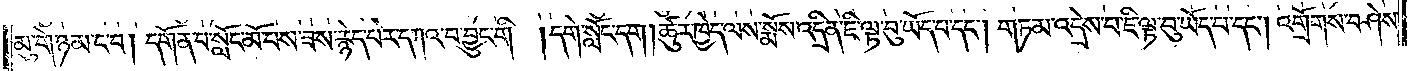མུ་གེ་ཉམ་ང་བ། དགོན་པ་སློང་མོ་པས་ཟས་རྙེད་པར་དཀའ་བ་བྱུང་གི །དགེ་སློང་དག །ཚུར་ཁྱེད་ལས་སྨོས་འདྲིན་ཇི་ལྟ་བུ་ཡོད་པ་དང༌། གཏམ་འདྲེས་པ་ཇི་ལྟ་བུ་ཡོད་པ་དང༌། འགྲོགས་བཤེས་
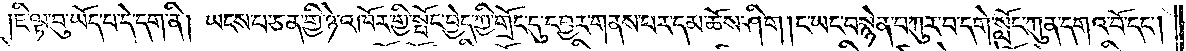ཇི་ལྟ་བུ་ཡོད་པ་དེ་དག་ནི། ཡངས་པ་ཅན་གྱི་ཉེ་འཁོར་གྱི་སྤོང་བྱེད་ཀྱི་གྲོང་དུ་དབྱར་གནས་པར་དམ་ཆོས་ཤིག །ང་ཡང་བསྙེན་བཀུར་བ་དགེ་སློང་ཀུན་དགའ་བོ་དང༌།
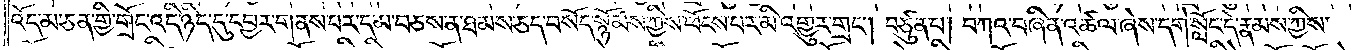འོད་མ་ཅན་གྱི་གྲོང་འདི་ཉིད་དུ་དབྱར་གནས་པར་དམ་བཅས་ན་ཐམས་ཅད་བསོད་སྙོམས་ཀྱིས་ཕོངས་པར་མི་འགྱུར་གྲང༌། བཙུན་པ། བཀའ་བཞིན་འཚལ་ཞེས་དགེ་སློང་དེ་རྣམས་ཀྱིས་
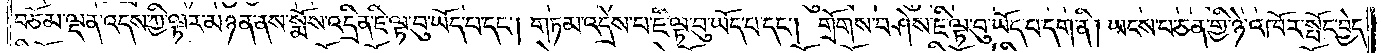བཅོམ་ལྡན་འདས་ཀྱི་ལྟར་མཉན་ནས་སྨོས་འདྲིན་ཇི་ལྟ་བུ་ཡོད་པ་དང༌། གཏམ་འདྲེས་པ་ཇི་ལྟ་བུ་ཡོད་པ་དང༌། གྲོགས་བཤེས་ཇི་ལྟ་བུ་ཡོད་པ་དག་ནི། ཡངས་པ་ཅན་གྱི་ཉེ་འཁོར་སྤོང་བྱེད་
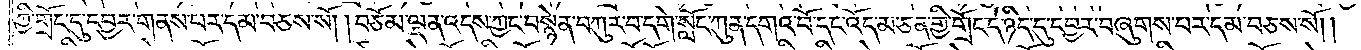ཀྱི་གྲོང་དུ་དབྱར་གནས་པར་དམ་བཅས་སོ། །བཅོམ་ལྡན་འདས་ཀྱང་བསྙེན་བཀུར་བ་དགེ་སློང་ཀུན་དགའ་བོ་དང་འོད་མ་ཅན་གྱི་གྲོང་དེ་ཉིད་དུ་དབྱར་བཞུགས་པར་དམ་བཅས་སོ། །
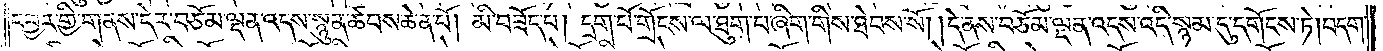དབྱར་གྱི་གནས་དེར་བཅོམ་ལྡན་འདས་སྙུན་ཚབས་ཆེན་པོ། མི་བཟོད་པ། དྲག་པོ་གྲོངས་ལ་ཐུག་པ་ཞིག་གིས་ཐེབས་སོ། །དེ་ནས་བཅོམ་ལྡན་འདས་འདི་སྙམ་དུ་དགོངས་ཏེ། བདག་
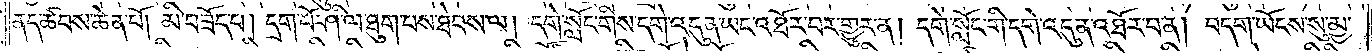ནད་ཚབས་ཆེན་པོ། མི་བཟོད་པ། དྲག་པོ་ཤི་ལ་ཐུག་པས་ཐེབས་ལ། དགེ་སློང་གིས་དགེ་འདུན་ཡང་འཐོར་བར་གྱུར་ན། དགེ་སློང་གི་དགེ་འདུན་འཐོར་བ་ན། བདག་ཡོངས་སུ་མྱ་
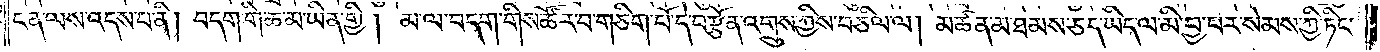ངན་ལས་འདས་པ་ནི། བདག་གི་ཆ་མ་ཡིན་གྱི། མ་ལ་བདག་གིས་ཚོར་བ་གཅིག་པོ་དེ་བརྩོན་འགྲུས་ཀྱིས་བཅིལ་ལ། མཚན་མ་ཐམས་ཅད་ཡིད་ལ་མི་བྱ་བར་སེམས་ཀྱིས་ཏིང་
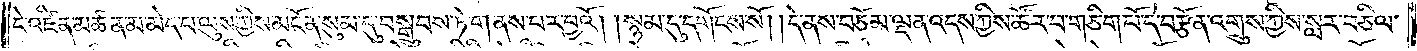ངེ་འཛིན་མཚན་མ་མེད་པ་ལུས་ཀྱིས་མངོན་སུམ་དུ་བསྒྲུབས་ཏེ་གནས་པར་བྱའོ། །སྙམ་དུ་དགོངས་སོ། །དེ་ནས་བཅོམ་ལྡན་འདས་ཀྱིས་ཚོར་བ་གཅིག་པོ་དེ་བརྩོན་འགྲུས་ཀྱིས་སླར་བཅིལ་
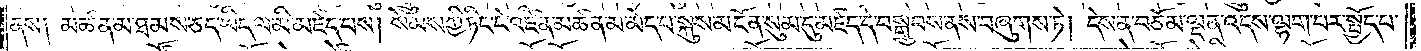ནས༑ མཚན་མ་ཐམས་ཅད་ཡིད་ལ་མི་མཛད་པས། སེམས་ཀྱི་ཏིང་ངེ་འཛིན་མཚན་མ་མེད་པ་སྐུས་མངོན་སུམ་དུ་མཛད་དེ་བསྒྲུབས་ནས་བཞུགས་ཏེ། དེས་ན་བཅོམ་ལྡན་འདས་ལྷག་པར་སྤྱོད་པ་
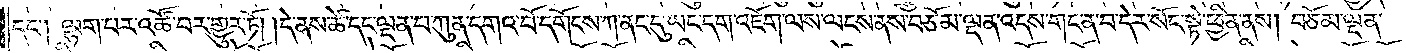དང༌། ལྷག་པར་འཚོ་བར་གྱུར་ཏོ། །དེ་ནས་ཚེ་དང་ལྡན་པ་ཀུན་དགའ་བོ་དགོངས་ཀ་ནང་དུ་ཡང་དག་འཇོག་ལས་ལངས་ནས་བཅོམ་ལྡན་འདས་གང་ན་བ་དེར་སོང་སྟེ་ཕྱིན་ནས། བཅོམ་ལྡན་
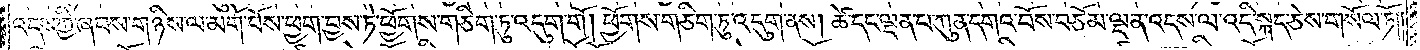འདས་ཀྱི་ཞབས་གཉིས་ལ་མགོ་བོས་ཕྱག་བྱས་ཏེ་ཕྱོགས་གཅིག་ཏུ་འདུག་གོ། ཕྱོགས་གཅིག་ཏུ་འདུག་ནས། ཚེ་དང་ལྡན་པ་ཀུན་དགའ་བོས་བཅོམ་ལྡན་འདས་ལ་འདི་སྐད་ཅེས་གསོལ་ཏོ༎
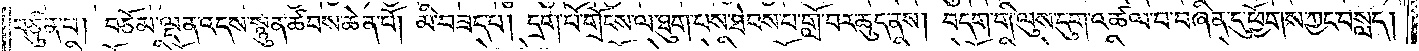བཙུན་པ། བཅོམ་ལྡན་འདས་སྙུན་ཚབས་ཆེན་པོ། མི་བཟད་པ། དྲག་པོ་གྲོངས་ལ་ཐུག་པས་ཐེབས་པ་གློ་བར་ཆུད་ནས། བདག་གི་ལུས་དུག་འཚལ་བ་བཞིན་དུ་ཕྱོགས་ཀྱང་བསླད།
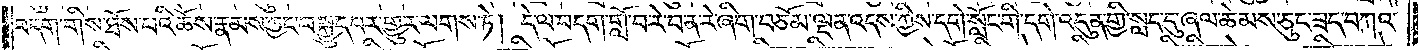བདག་གིས་ཐོས་པའི་ཆོས་རྣམས་ཀྱང་བསྐྱུད་པར་གྱུར་ལགས་ཏེ། དེ་ལ་བདག་གློ་བ་རེ་བ་ན་རེ་ཞིག་བཅོམ་ལྡན་འདས་ཀྱིས་དགེ་སློང་གི་དགེ་འདུན་གྱི་སླད་དུ་ཞལ་ཆེམས་ཅུང་ཟད་བཀའ་
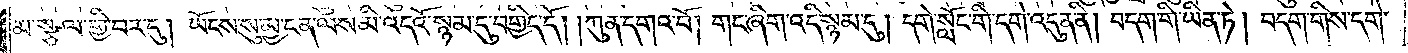མ་སྩལ་གྱི་བར་དུ། ཡོངས་སུ་མྱ་ངན་ལས་མི་འདའོ་སྙམ་དུ་བགྱིད་དོ། །ཀུན་དགའ་བོ། གང་ཞིག་འདི་སྙམ་དུ། དགེ་སློང་གི་དགེ་འདུན་ནི། བདག་གི་ཡིན་ཏེ། བདག་གིས་དགེ་
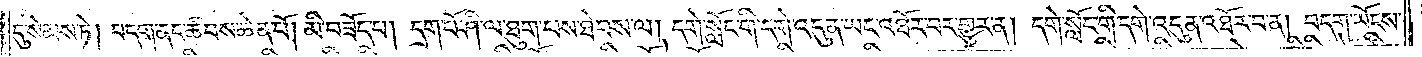དུ་སེམས་ཏེ། བདག་ནད་ཚབས་ཆེན་པོ། མི་བཟོད་པ། དྲག་པོ་ཤི་ལ་ཐུག་པས་ཐེབས་ལ། དགེ་སློང་གི་དགེ་འདུན་ཡང་འཐོར་བར་གྱུར་ན། དགེ་སློང་གི་དགེ་འདུན་འཐོར་བ་ན། བདག་ཡོངས་
